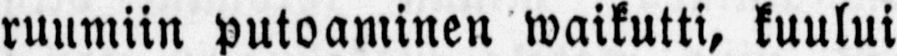ruumiin putoaminen waikutti, kuului
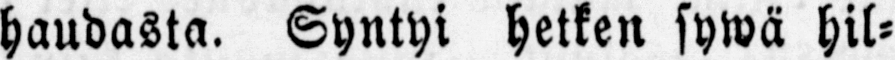haudasta. Syntyi hetken sywä hil-
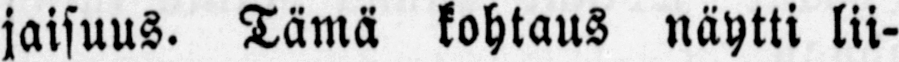jaisuus. Tämä kohtaus näytti lii-
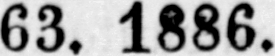No. 63. 1886.
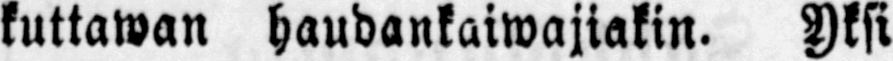kuttawan haudankaiwajiakin. Yksi
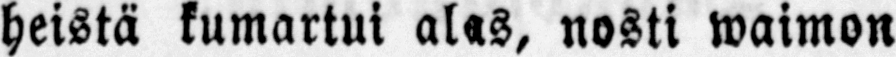heistä kumartui alas, nosti waimon
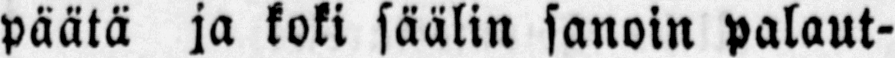päätä ja koki säälin sanoin palaut-
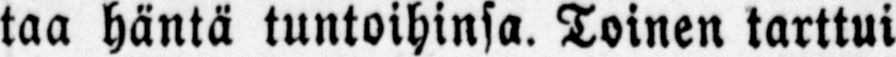taa häntä tuntoihinsa. Toinen tarttui
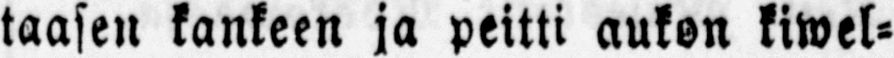taasen kankeen ja peitti aukon kiwel-
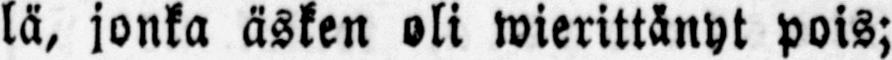lä, jonka äsken oli wierittänyt pois;
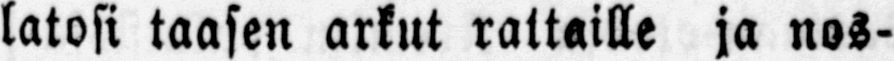latosi taasen arkut rattaille ja nos-
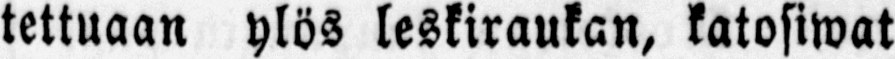tettuaan ylös leskiraukan, katosiwat
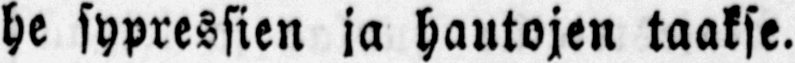he sypressien ja hautojen taakse.
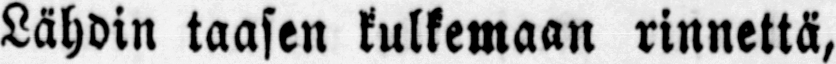Lähdin taasen kulkemaan rinnettä,
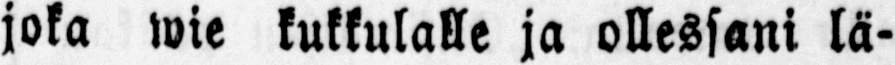joka wie kukkulalle ja ollessani lä-
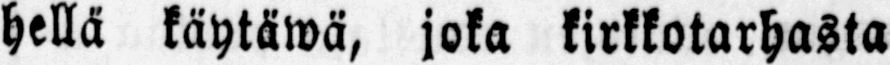hellä käytäwä, joka kirkkotarhasta
